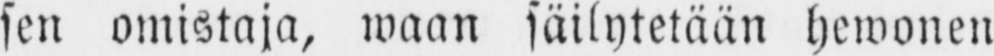sen omistaja, waan säilytetään Hewonen
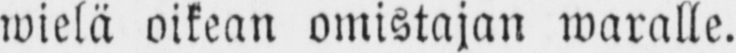wielä oikean omistajan waralle.
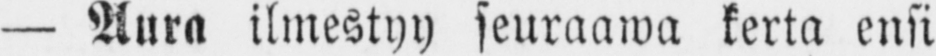— Aura ilmestyy seuraawa kerta ensi
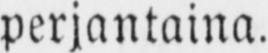perjantaina.
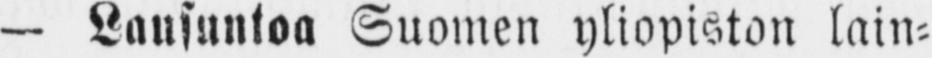— Lausuntoa Suomen yliopiston lain-
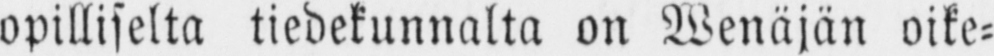opilliselta tiedekunnalta on Wenäjän oike-
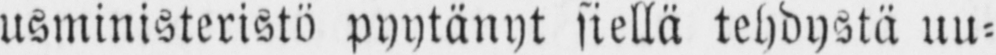usministeristä pyytänyt siellä tehdystä uu-
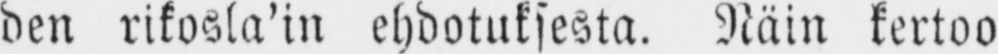den rikosla'in ehdotuksesta. Näin kertoo
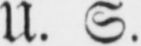U. S.
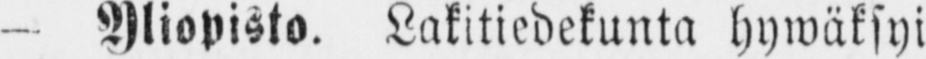— Yliopisto. Lakitiedekunta hywäksyi
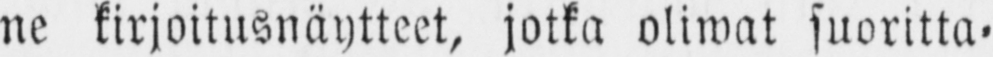ne kirjoitusnäytteet, jotka oliwat suoritta-
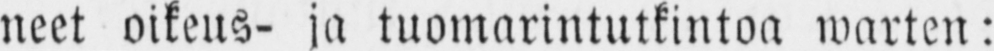neet oikeus- ja tuomarintutkintoa warten:
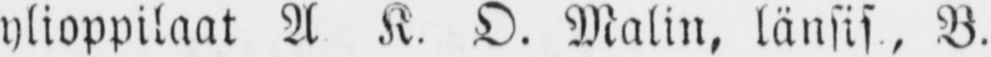ylioppilaat A K. O. Malin, länsis, B.
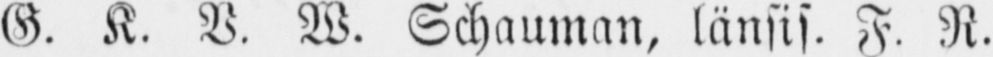K. K. V. W. Schauman, länsis. F. R.
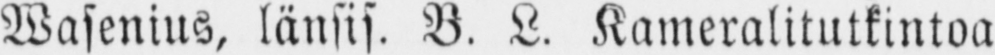Wasenius, länsis. B. L. Kameralitutkintoa
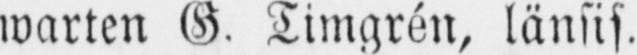warten G. Timgrén, länsis.
